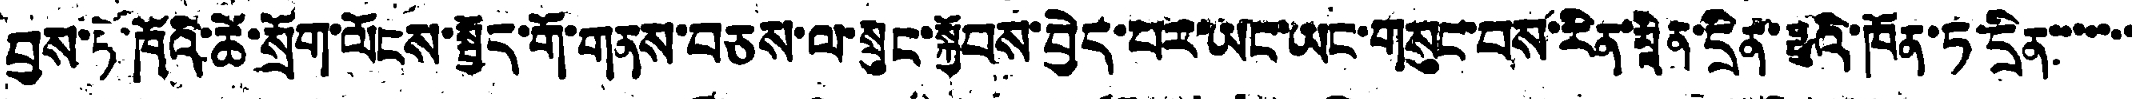བྱས་ཏེ་ཁོའི་ཚེ་སྲོག་ལོངས་སྤྱོད་གོ་གནས་བཅས་ལ་སྲུང་སྐྱོབས་བྱེད་པར་ཡང་ཡང་གསུང་པས་རིན་མཱིན་དྲིན་ཧྥུའི་ཁོན་ཏུ་དྲིན་་་་་་་
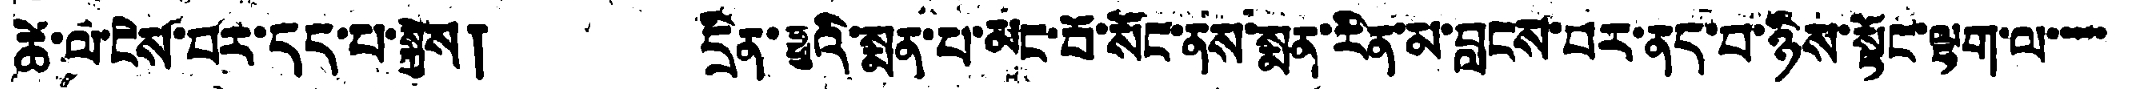ཚེ་ལ་ངེས་བར་དད་པ་སྐྱེས། དྲིན་ཧྥུའི་སྨན་པ་མང་པོ་སོང་ནས་སྨན་རིན་མ་བླངས་བར་ནད་པ་ཉིས་སྟོང་ལྷག་ལ་་་་་
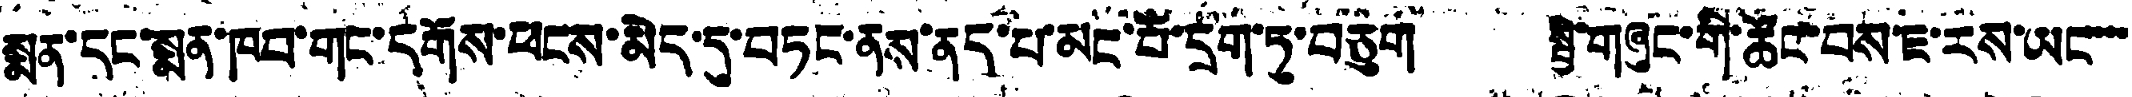སྨན་དང་སྨན་ཁབ་གང་དགོས་ཕངས་མེད་དུ་བཏང་ནས་ནད་པ་མང་པོ་དྲག་ཏུ་བཅུག སྦྱི་གཞུང་གི་ཚོང་བས་ཇ་རས་ཡང་་་་
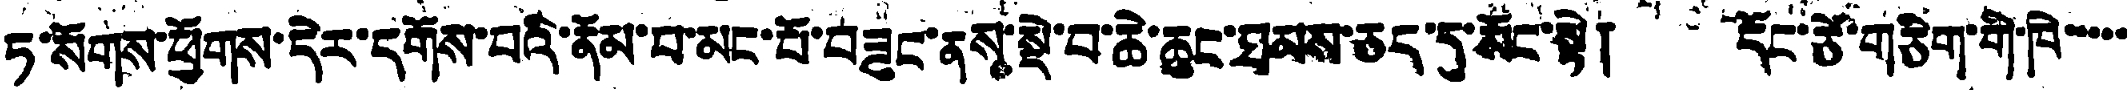ཏ་སོགས་ཕྱོགས་དེར་དགོས་པའི་ནོམ་པ་མང་པོ་བཟུང་ནས་སྡེ་བ་ཆེ་ཆུང་ཐམས་ཅད་དུ་སོང་སྟེ། དོང་ཙེ་གཅིག་གི་ཁེ་་་་་་
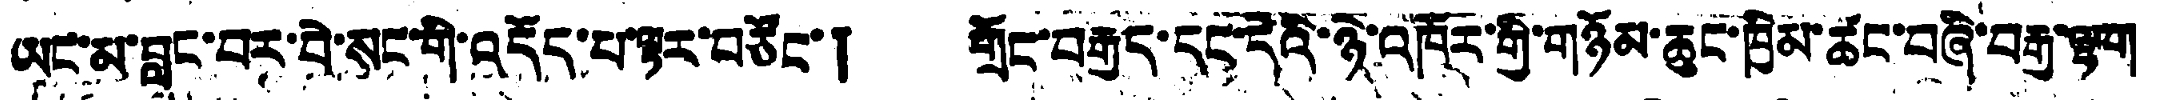ཡང་མ་བླང་བར་བེ་སང་གི་འདོད་པ་ལྟར་བཙོང་། གྲོང་བརྒྱད་དང་དེའི་ཉེ་འཁོར་གྱི་གཉོམ་ཆུང་ཁྱིམ་ཚང་བཞི་བརྒྱ་ལྷག
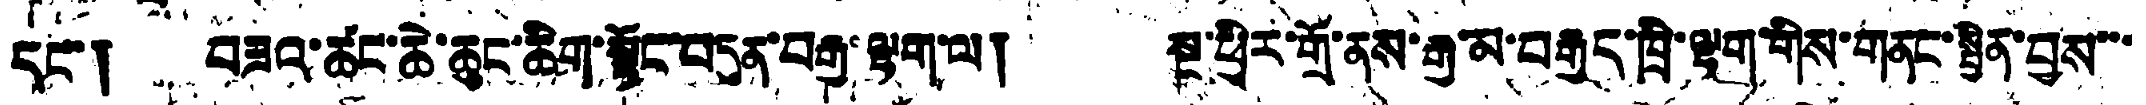དང་། བཟའ་ཚང་ཆེ་ཆུང་ཆིག་སྟོང་བདུན་བརྒྱ་ལྷག་ལ། སྔ་ཕྱིར་གྲོ་ནས་རྒྱ་མ་བརྒྱད་ཁྲི་ལྷག་གིས་གནང་སྦྱིན་བྱས་་་
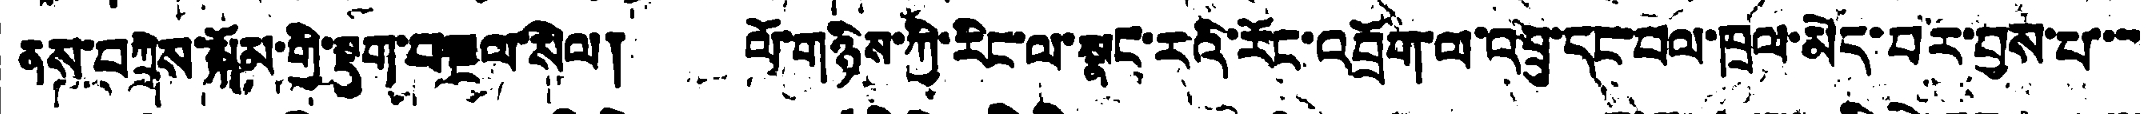ནས་བཀྲེས་སྐོམ་གྱི་སྡུག་བསྔལ་སེལ། ལོ་གཉིས་ཀྱི་རིང་ལ་སྣང་རའི་རོང་འབྲོག་ལ་འབྲུ་དང་བལ་ཁྲལ་མེད་བར་བྱས་པ་་་་
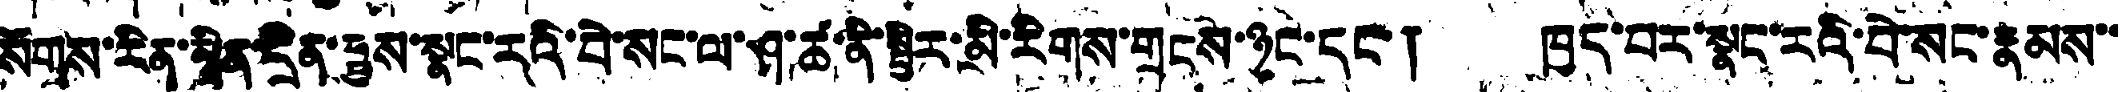སོགས་རིན་མཱིན་དྲིན་ཧྥུས་སྣང་རའི་བེ་སང་ལ་ཤ་ཚ་ནི་སྤྱིར་མི་རིགས་གྲངས་ཉུང་དང་། ཁྱད་བར་སྣང་རའི་བེ་སང་རྣམས་་
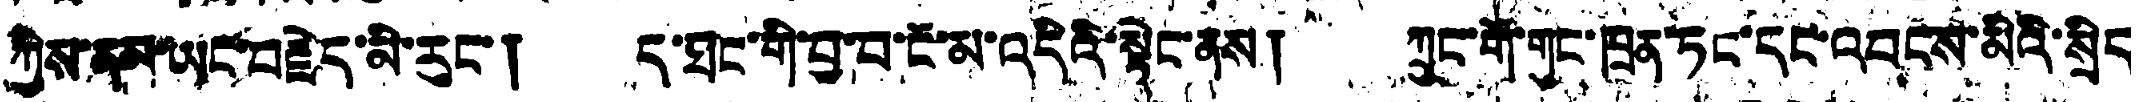ཀྱིས་ནམ་ཡང་བརྗེད་མི་རུང་། ད་ཐང་གི་བྱ་བ་ངོ་མ་འདིའི་སྟེང་ནས། ཀྲུང་གོ་གུང་ཁྲན་ཏང་དང་འབངས་མིའི་སྲིད
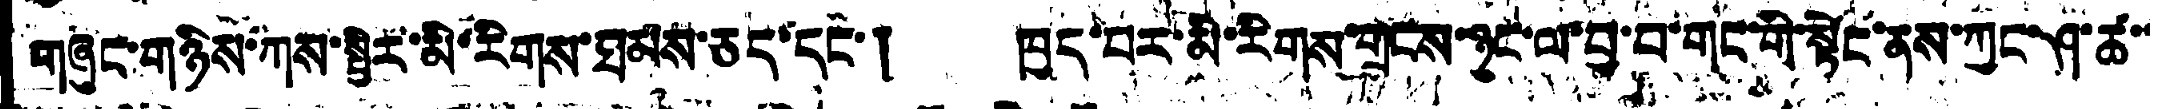གཞུང་གཉིས་ཀས་སྤྱིར་མི་རིགས་ཐམས་ཅད་དང་། ཁྱད་པར་མི་རིགས་གྲངས་ཉུང་ལ་བྱ་བ་གང་གི་སྟེང་ནས་ཀྱང་ཤ་ཚ་་
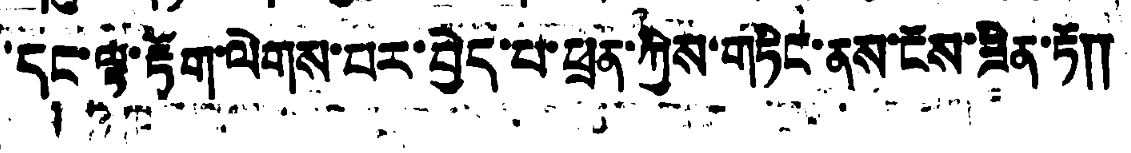དང་ལྟ་རྟོག་ལེགས་པར་བྱེད་པ་ཕྲན་ཀྱིས་གཏིང་ནས་ངོས་ཟིན་ཏོ།།
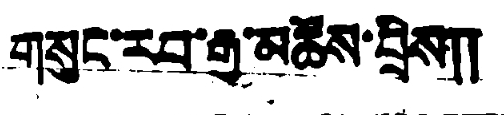གསུང་རབ་རྒྱ་མཚོས་བྲིས།།
